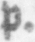p.
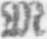M.
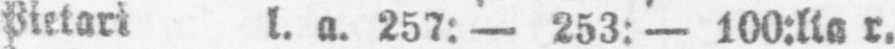Pietari l. a. 257: — 253: — 100:lta r.
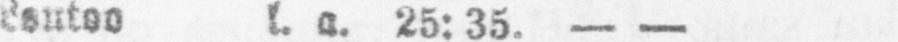Lontoo l. a. 25: 35. — —
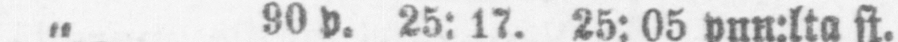„ 90 p. 25: 17. 25: 05 pnn:lta st.
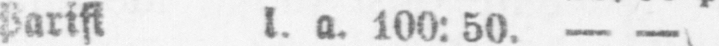Parisi l. a. 100: 50. — —
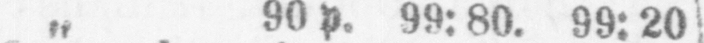„ 90 p. 99: 80. 99: 20
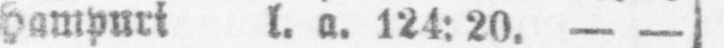Hampuri l. a. 124: 20 — —
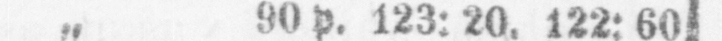„ 90 p. 123: 20. 122: 60
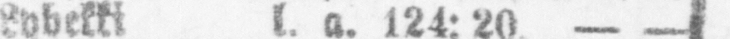Lybekki l. a. 124: 20 — —
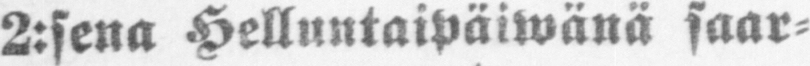2:sena Helluntaipäiwänä saar-
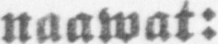naawat:
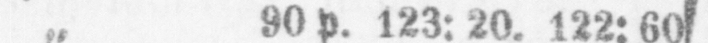„ 90 p. 123: 20. 122: 60
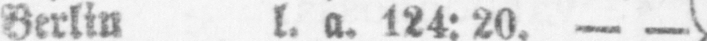Berlin. l. a. 124: 20. — —
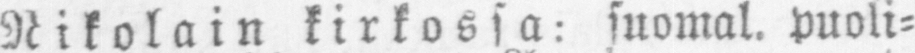Nikolain kirkossa: suomal, puoli-
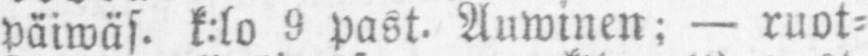päiwäs. k:lo 9 past. Auwinen; — ruot-
